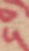༥
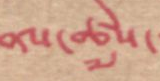ནས་ཚེས་
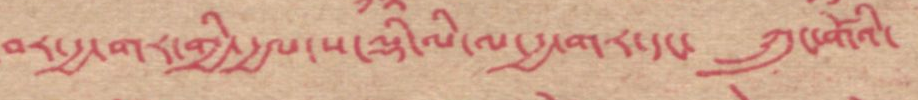བར་རྒྱ་གར་གྱི་རྒྱལ་ས་ལྟི་ལི་ལ་རྒྱ་གར་དང་ ཀྲུང་གོའི་
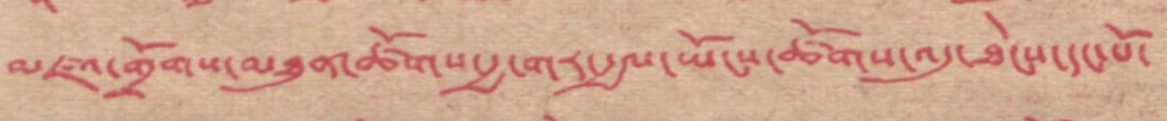འཛམ་གྲོགས་མཐུན་ཚོགས་རྒྱ་གར་རྒྱལ་ཡོངས་ཚོགས་འདུ་ཐེངས་དང་པོ་
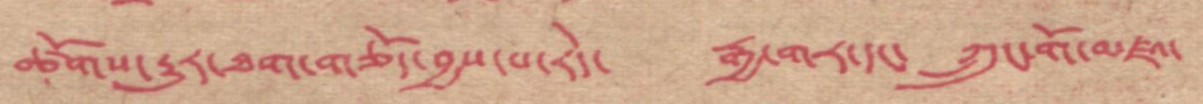ཚོགས་རྒྱུར་ཐག་གཅོད་བྱས་པ་རེད་ རྒྱ་གར་དང་ ཀྲུང་གོ་མཛའ་
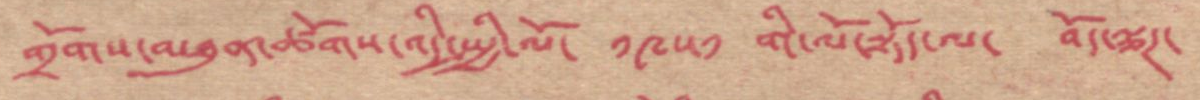གྲོགས་མཐུན་ཚོགས་འདི་སྤྱི་ལོ་ ༡༩༥༡ ་གི་ལོ་སྟོད་ལ་ བོད་ལྕཌ་
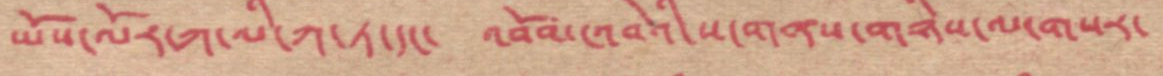ཡོས་ལོར་ཀ་ལི་ཀ་ཏ་དང་ འབོམ་འབེའི་ས་གནས་གཉིས་ལ་གསར་
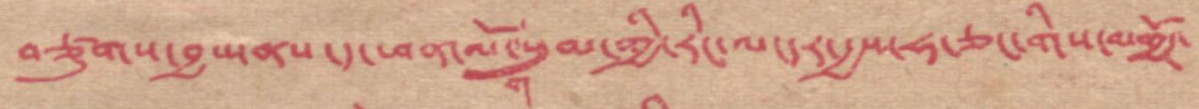བཙུགས་བྱས་ནས་ད་ཕན་ལོ་གསུམ་གྱི་རིང་ལ་དར་རྒྱས་ཧ་ཅང་གིས་མགྱོཌ་
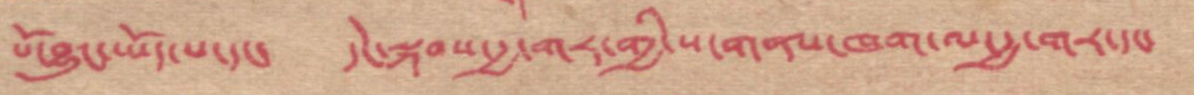པོ་བྱུང་ཡོད་པ་དང་ དེང་སྐབས་རྒྱ་གར་གྱི་ས་གནས་ཁག་ལ་རྒྱ་གར་དང་
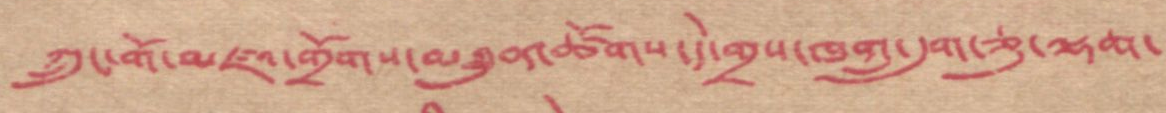ཀྲུང་གོ་མཛའ་གྲོགས་མཐུན་ཚོགས་དེ་གྲས་ཁག་དྲུག་ཅུ་ལྷག་
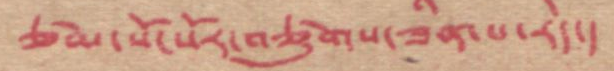ཙམ་སོ་སོར་བཙུགས་ཟིན་པ་རེད།
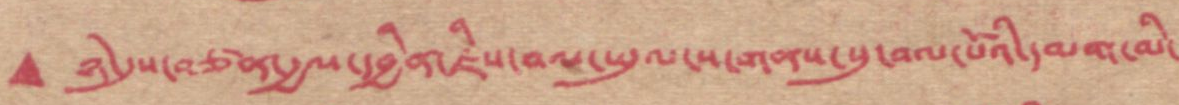▲ ཉེ་དུས་བཙན་རྒྱལ་དབྱིན་ཇིས་བལ་ཡུལ་ས་གནས་སུ་བལ་པོའི་དམག་མི་
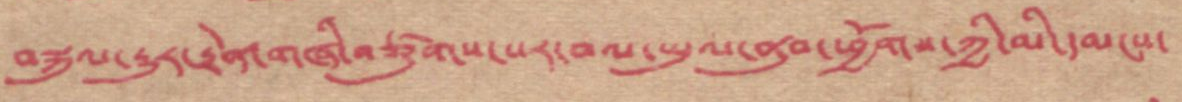བསྐུལ་རྒྱུར་རྟེན་གཞི་བཙུགས་པར་བལ་ཡུལ་ནུབ་ཕྱོགས་ཀྱི་མི་དམངས་
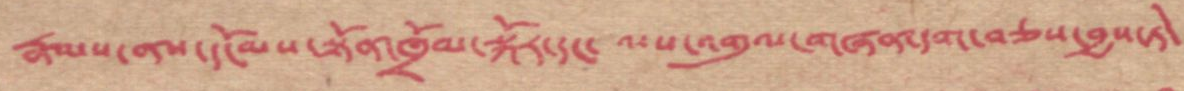རྣམས་ནས་དངོམས་སྟོན་ཁྲོམ་སྐོར་དང་ལས་འགུལ་གཞན་དག་བཅས་བྱས་ཏེ་
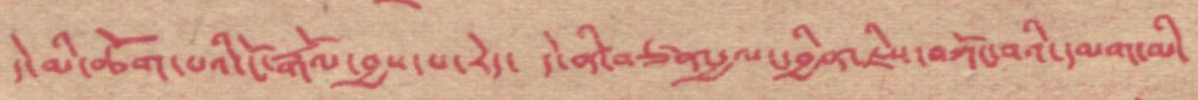དེ་མི་ཆོག་པའི་ངོ་རྒོལ་བྱས་པ་རེད་ དེ་ནི་བཙན་རྒྱལང་བྱིན་ཇེས་བཀོང་བའི་དམག་མི་
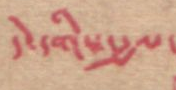དེ་དགིས་རྒྱལ་
